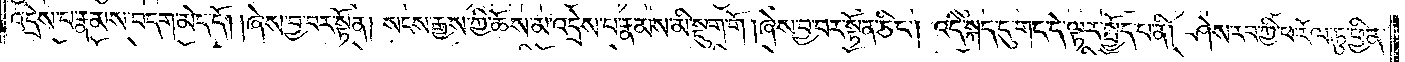འདྲེས་པ་རྣམས་བདག་མེད་དོ། །ཞེས་བྱ་བར་སྟོན། སངས་རྒྱས་ཀྱི་ཆོས་མ་འདྲེས་པ་རྣམས་མི་སྡུག་གོ། ཞེས་བྱ་བར་སྟོན་ཅིང༌། འདི་སྐད་དུ་གང་དེ་ལྟར་སྤྱོད་པ་ནི། ཤེས་རབ་ཀྱི་ཕ་རོལ་ཏུ་ཕྱིན་
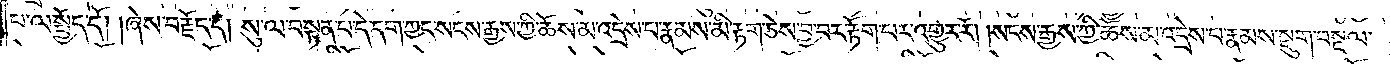པ་ལ་སྤྱོད་དོ། །ཞེས་བརྗོད་དེ། སུ་ལ་བསྟན་པ་དེ་དག་ཀྱང་སངས་རྒྱས་ཀྱི་ཆོས་མ་འདྲེས་པ་རྣམས་མི་རྟག་ཅེས་བྱ་བར་རྟོག་པར་འགྱུར་རོ། །སངས་རྒྱས་ཀྱི་ཆོས་མ་འདྲེས་པ་རྣམས་སྡུག་བསྔལ་
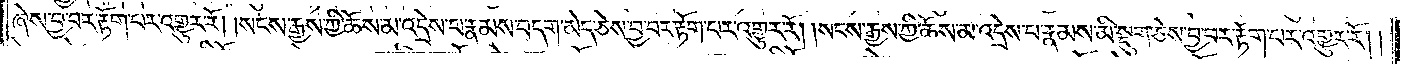ཞེས་བྱ་བར་རྟོག་པར་འགྱུར་རོ། །སངས་རྒྱས་ཀྱི་ཆོས་མ་འདྲེས་པ་རྣམས་བདག་མེད་ཅེས་བྱ་བར་རྟོག་པར་འགྱུར་རོ། །སངས་རྒྱས་ཀྱི་ཆོས་མ་འདྲེས་པ་རྣམས་མི་སྡུག་ཅེས་བྱ་བར་རྟོག་པར་འགྱུར་རོ། །
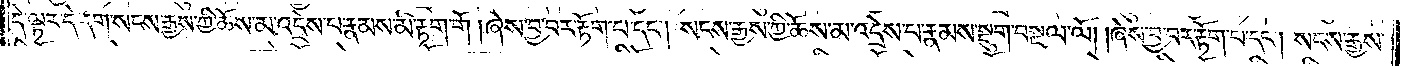དེ་ལྟར་དེ་དག་སངས་རྒྱས་ཀྱི་ཆོས་མ་འདྲེས་པ་རྣམས་མི་རྟག་གོ །ཞེས་བྱ་བར་རྟོག་པ་དང༌། སངས་རྒྱས་ཀྱི་ཆོས་མ་འདྲེས་པ་རྣམས་སྡུག་བསྔལ་ལོ། །ཞེས་བྱ་བར་རྟོག་པ་དང༌། སངས་རྒྱས་
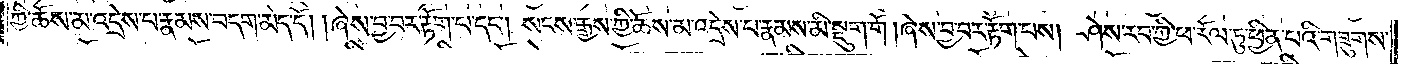ཀྱི་ཆོས་མ་འདྲེས་པ་རྣམས་བདག་མེད་དོ། །ཞེས་བྱ་བར་རྟོག་པ་དང༌། སངས་རྒྱས་ཀྱི་ཆོས་མ་འདྲེས་པ་རྣམས་མི་སྡུག་གོ། ཞེས་བྱ་བར་རྟོག་པས། ཤེས་རབ་ཀྱི་ཕ་རོལ་ཏུ་ཕྱིན་པའི་གཟུགས་
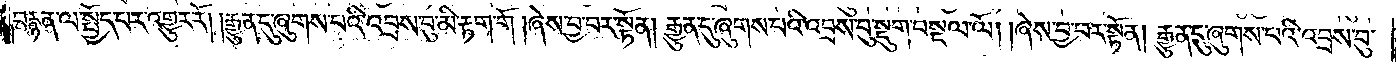བརྙན་ལ་སྤྱོད་པར་འགྱུར་རོ། །རྒྱུན་དུ་ཞུགས་པའི་འབྲས་བུ་མི་རྟག་གོ། ཞེས་བྱ་བར་སྟོན། རྒྱུན་དུ་ཞུགས་པའི་འབྲས་བུ་སྡུག་བསྔལ་ལོ། །ཞེས་བྱ་བར་སྟོན། རྒྱུན་དུ་ཞུགས་པའི་འབྲས་བུ་
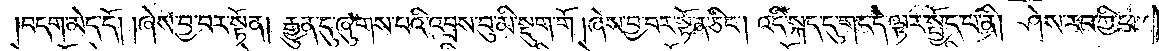བདག་མེད་དོ། །ཞེས་བྱ་བར་སྟོན། རྒྱུན་དུ་ཞུགས་པའི་འབྲས་བུ་མི་སྡུག་གོ །ཞེས་བྱ་བར་སྟོན་ཅིང༌། འདི་སྐད་དུ་གང་དེ་ལྟར་སྤྱོད་པ་ནི། ཤེས་རབ་ཀྱི་ཕ་
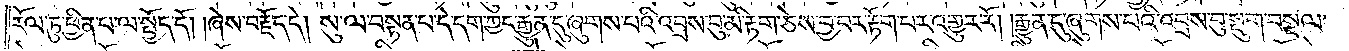རོལ་ཏུ་ཕྱིན་པ་ལ་སྤྱོད་དོ། །ཞེས་བརྗོད་དེ། སུ་ལ་བསྟན་པ་དེ་དག་ཀྱང་རྒྱུན་དུ་ཞུགས་པའི་འབྲས་བུ་མི་རྟག་ཅེས་བྱ་བར་རྟོག་པར་འགྱུར་རོ། །རྒྱུན་དུ་ཞུགས་པའི་འབྲས་བུ་སྡུག་བསྔལ་
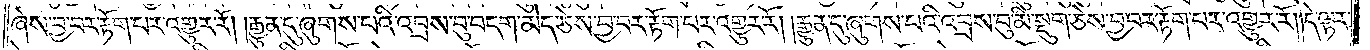ཞེས་བྱ་བར་རྟོག་པར་འགྱུར་རོ། །རྒྱུན་དུ་ཞུགས་པའི་འབྲས་བུ་བདག་མེད་ཅེས་བྱ་བར་རྟོག་པར་འགྱུར་རོ། །རྒྱུན་དུ་ཞུགས་པའི་འབྲས་བུ་མི་སྡུག་ཅེས་བྱ་བར་རྟོག་པར་འགྱུར་རོ། །དེ་ལྟར་
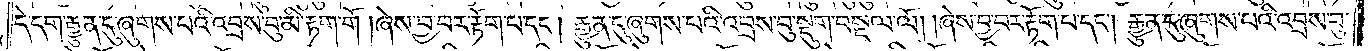དེ་དག་རྒྱུན་དུ་ཞུགས་པའི་འབྲས་བུ་མི་རྟག་གོ །ཞེས་བྱ་བར་རྟོག་པ་དང༌། རྒྱུན་དུ་ཞུགས་པའི་འབྲས་བུ་སྡུག་བསྔལ་ལོ། །ཞེས་བྱ་བར་རྟོག་པ་དང༌། རྒྱུན་དུ་ཞུགས་པའི་འབྲས་བུ་
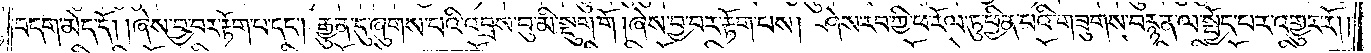བདག་མེད་དོ། །ཞེས་བྱ་བར་རྟོག་པ་དང༌། རྒྱུན་དུ་ཞུགས་པའི་འབྲས་བུ་མི་སྡུག་གོ །ཞེས་བྱ་བར་རྟོག་པས། ཤེས་རབ་ཀྱི་ཕ་རོལ་ཏུ་ཕྱིན་པའི་གཟུགས་བརྙན་ལ་སྤྱོད་པར་འགྱུར་རོ། །
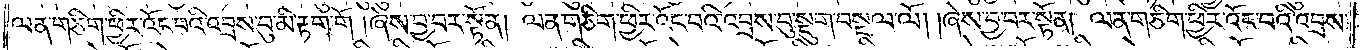ལན་གཅིག་ཕྱིར་འོང་བའི་འབྲས་བུ་མི་རྟག་གོ །ཞེས་བྱ་བར་སྟོན། ལན་གཅིག་ཕྱིར་འོང་བའི་འབྲས་བུ་སྡུག་བསྔལ་ལོ། །ཞེས་བྱ་བར་སྟོན། ལན་གཅིག་ཕྱིར་འོང་བའི་འབྲས་
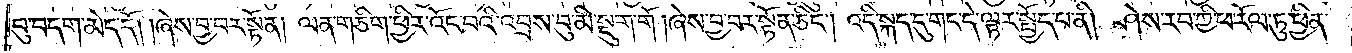བུ་བདག་མེད་དོ། །ཞེས་བྱ་བར་སྟོན། ལན་གཅིག་ཕྱིར་འོང་བའི་འབྲས་བུ་མི་སྡུག་གོ །ཞེས་བྱ་བར་སྟོན་ཅིང༌། འདི་སྐད་དུ་གང་དེ་ལྟར་སྤྱོད་པ་ནི། ཤེས་རབ་ཀྱི་ཕ་རོལ་ཏུ་ཕྱིན་
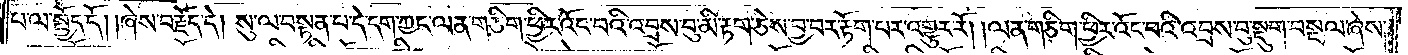པ་ལ་སྤྱོད་དོ། །ཞེས་བརྗོད་དེ། སུ་ལ་བསྟན་པ་དེ་དག་ཀྱང་ལན་གཅིག་ཕྱིར་འོང་བའི་འབྲས་བུ་མི་རྟག་ཅེས་བྱ་བར་རྟོག་པར་འགྱུར་རོ། །ལན་གཅིག་ཕྱིར་འོང་བའི་འབྲས་བུ་སྡུག་བསྔལ་ཞེས་
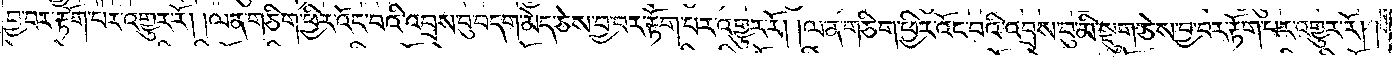བྱ་བར་རྟོག་པར་འགྱུར་རོ། །ལན་གཅིག་ཕྱིར་འོང་བའི་འབྲས་བུ་བདག་མེད་ཅེས་བྱ་བར་རྟོག་པར་འགྱུར་རོ། །ལན་གཅིག་ཕྱིར་འོང་བའི་འབྲས་བུ་མི་སྡུག་ཅེས་བྱ་བར་རྟོག་པར་འགྱུར་རོ། །
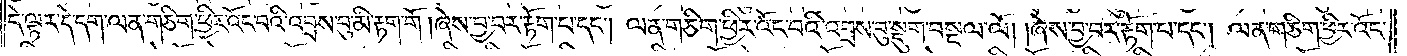དེ་ལྟར་དེ་དག་ལན་གཅིག་ཕྱིར་འོང་བའི་འབྲས་བུ་མི་རྟག་གོ། ཞེས་བྱ་བར་རྟོག་པ་དང༌། ལན་གཅིག་ཕྱིར་འོང་བའི་འབྲས་བུ་སྡུག་བསྔལ་ལོ། །ཞེས་བྱ་བར་རྟོག་པ་དང༌། ལན་གཅིག་ཕྱིར་འོང་
